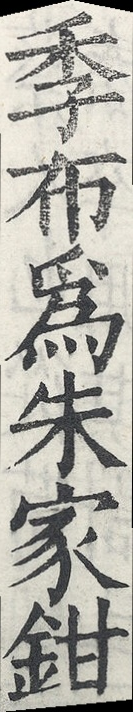季布為朱家鉗
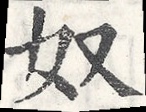奴
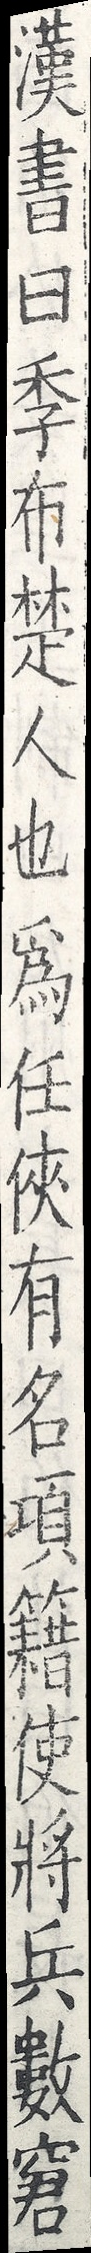漢書曰季布楚人也為任俠有名項籍使將兵數窘
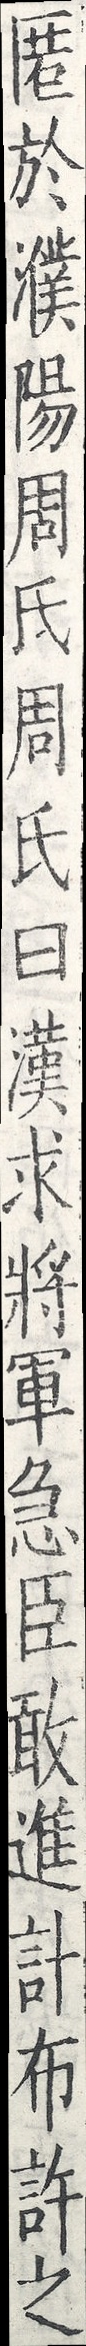匿於濮陽周氏周氏曰漢求將軍急臣敢進計布許之
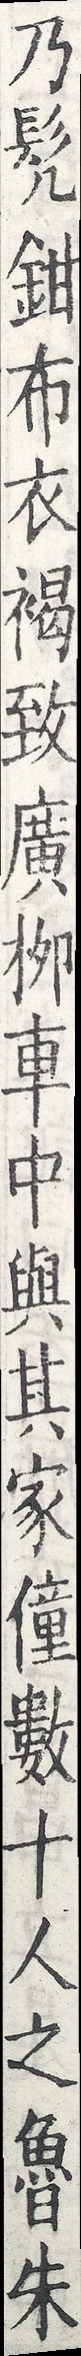乃髡鉗布衣褐致廣柳車中與其家僮數十人之魯朱
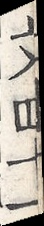文四十一
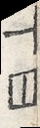十四
